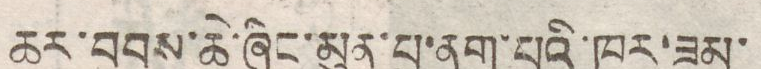ཆར་བབས་ཆེ་ཞིང་མུན་པ་ནག་པའི་ཁར་ཟམ་
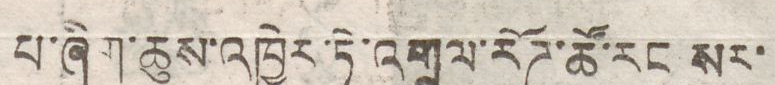པ་ཞིག་ཆུས་འཁྱེར་ཏེ་འགྲུལ་རོཌ་ཚོ་རང སར་
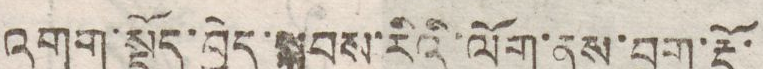འགག་སྡོད་བྱེད་སྐབས་རིའི་ལོག་ནས་བྲག་རྡོ་
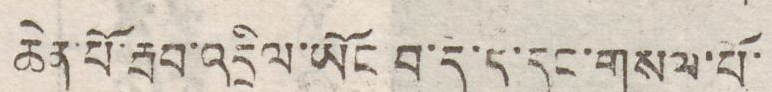ཆེན་པོ་རྦབ་འདྲིལ་ཡོང བ་དེ་ད་དུང་གསལ་པོ་
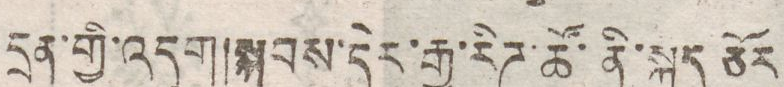དྲན་གྱི་འདུག།སྐབས་དེར་རྒྱ་རིཌ་ཚོ་ནི་སྐད ཅོར
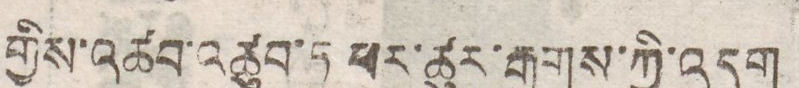གྱིས་འཚབ་འཚུབ་ཏུ ཕར་ཚུར་རྒྱུགས་ཀྱི་འདུག
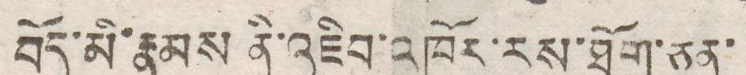བོད་མི་རྣམས ནི་འཇིབ་འཁོར་རས་ཐོག་ཅན་
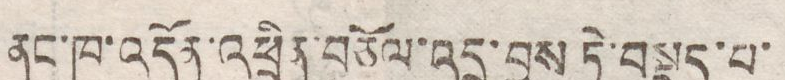ནང་ཁ་འདོན་འཕྲིན་བཅོལ་འདྲ་བྱས ཏེ་བསྡད་པ་
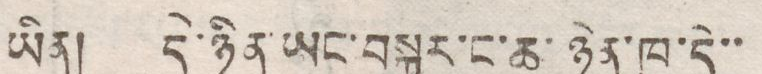ཡིན། དེ་ཉིན་ཡང་བསྐྱར་ང་ཆ་ཉེན་ཁ་དེ་་
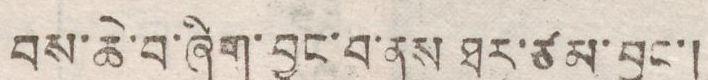བས་ཆེ་བ་ཞིག་བྱུང་བ་ནས ཐར་ཙམ་བྱུང་།
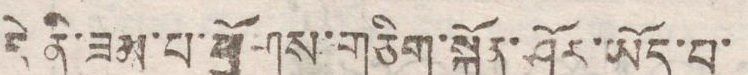དེ ནི་ཟམ་པ་ཕྱོགས་གཅིག་སྐྱོན་ཤོར་ཡོད་པ་
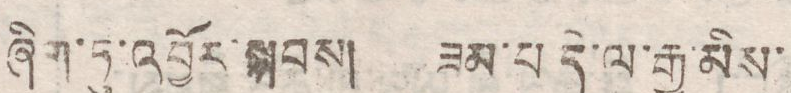ཞིག་ཏུ་འབྱོར་སྐབས། ཟམ་པ དེ་ལ་རྒྱ་མིས་
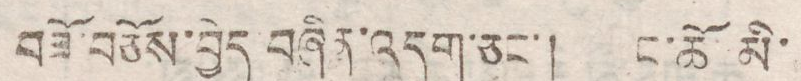བཟོ་བཅོས་བྱེད བཞིན་འདུག་ཅང་། ང་ཚོ་མི་
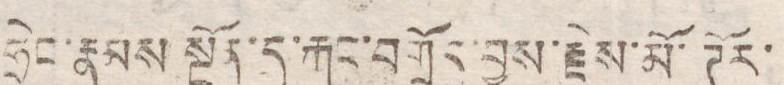ཧྲེང་རྣམས སྔོན་དུ་རྐང་བགྲོད་བྱས་རྗེས་མོ་ཊོར་
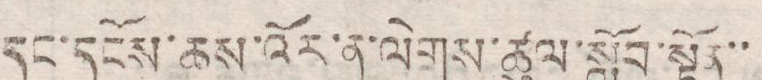དང་དངོས་ཆས་འོར་ན་ལེགས་ཚུལ་སློབ་སྟོན་་
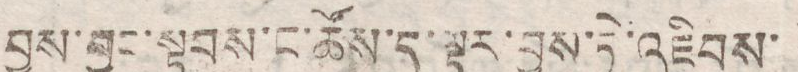བྱས་བྱུང་སྟབས་ང་ཚོས་ད་ལྟར་བྱས་ཏེ་འཇིབས་
